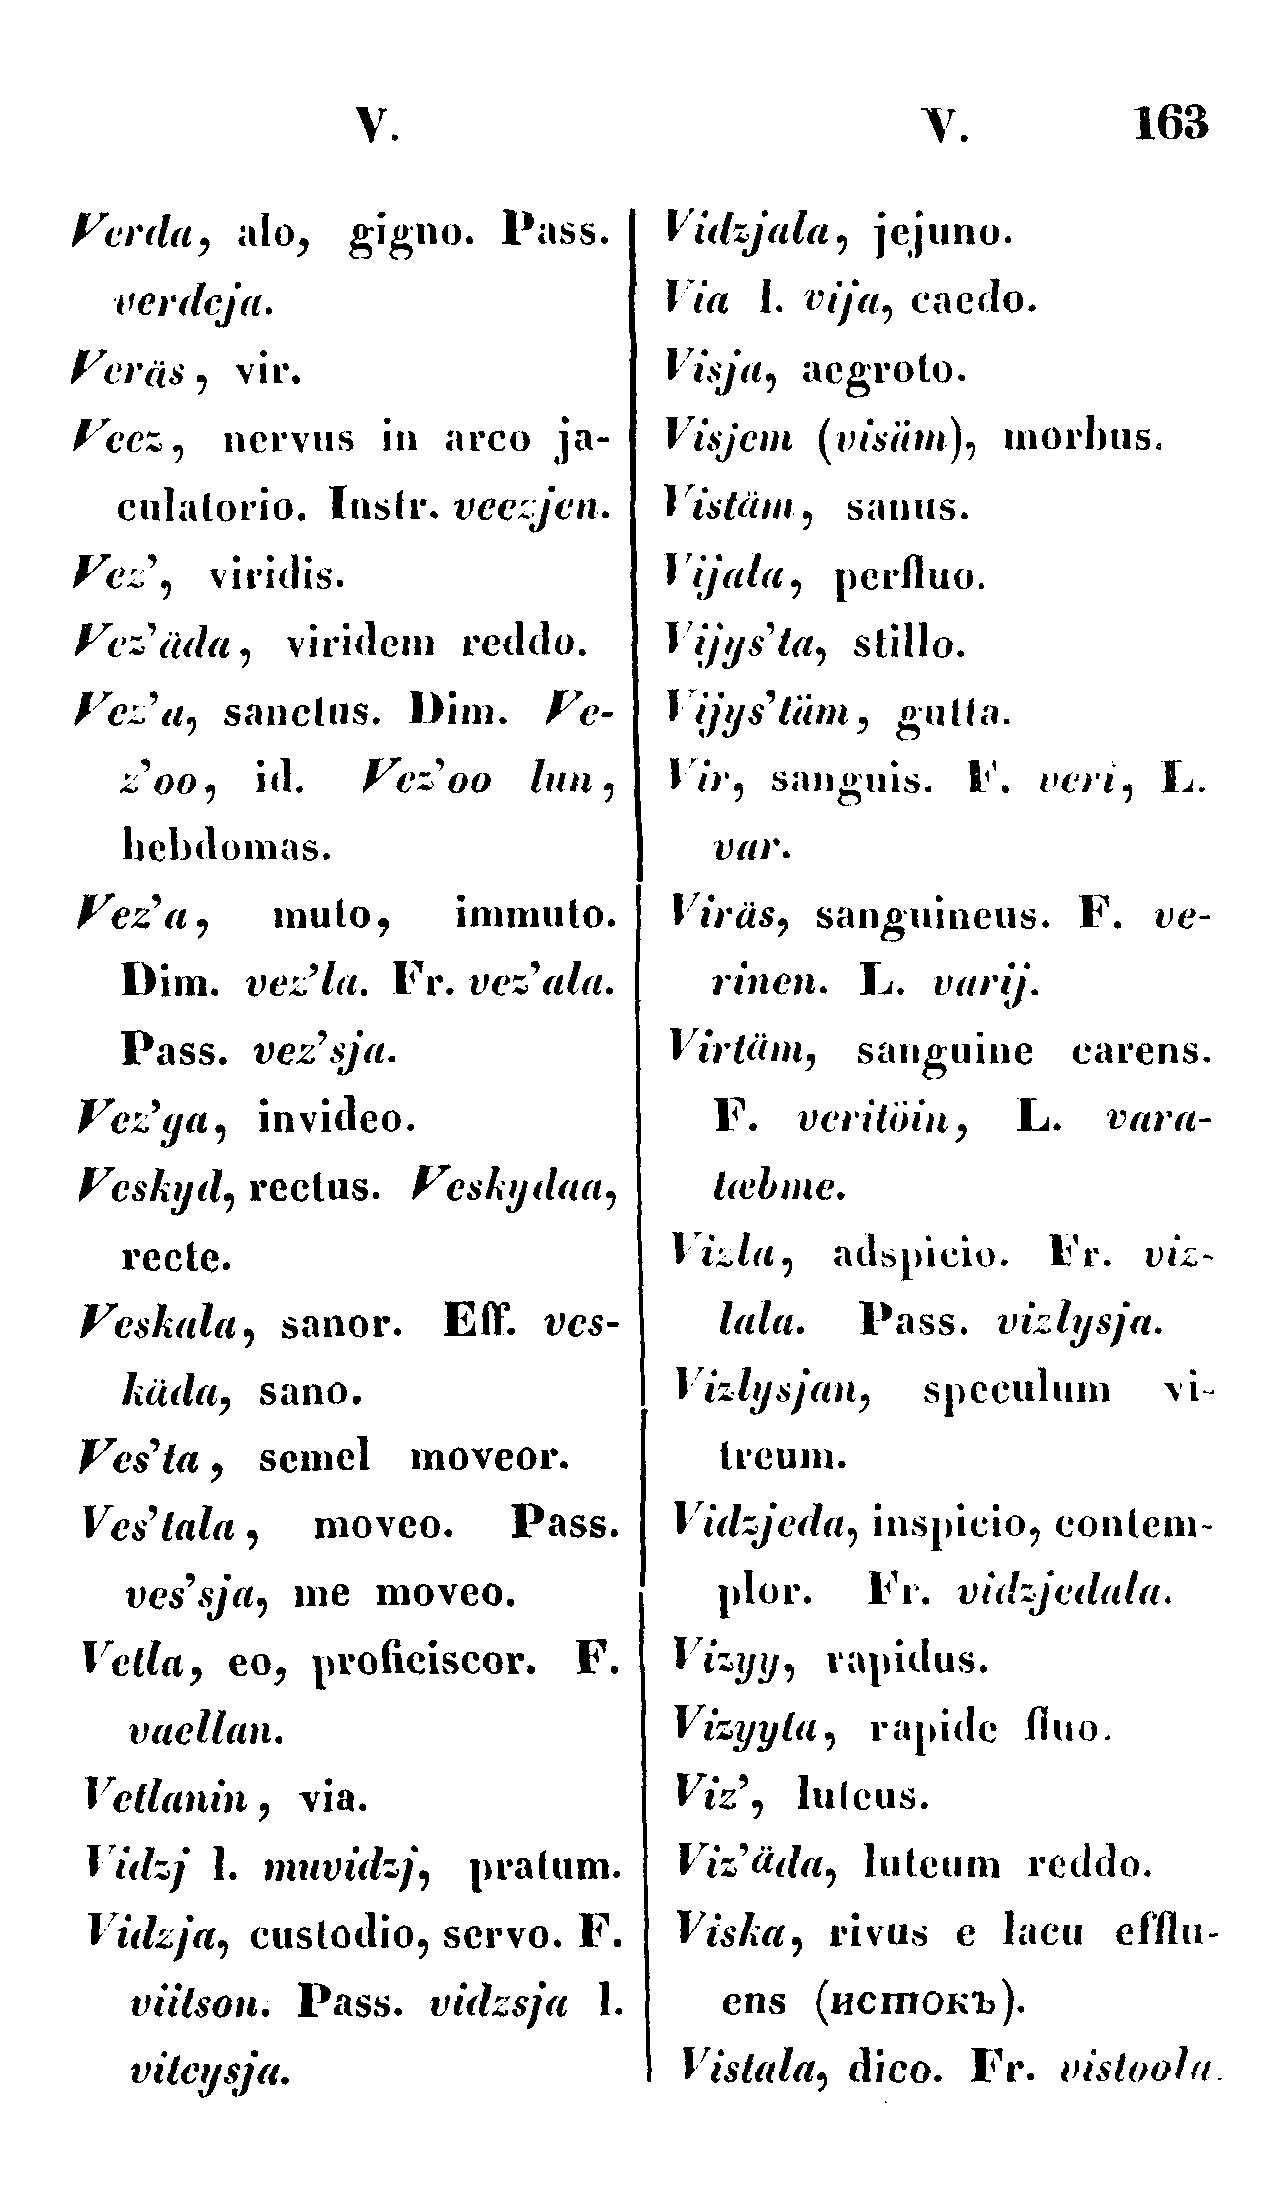V.
V.
163
Verda, alo, gigno. Pass.
verdeja.
Veräs, vir.
Vecz, nervus in arco ja-
culatorio. Instr. veczjen.
Vez', viridis.
Ves'äda, viridem reddo.
Vez'a, sanctus. Dim. Ve-
z'oo, id. Vez'oo lun,
hebdomas.
Vez'a, muto, immuto.
Dim. vez'la. Fr. vez'ala.
Pass. vez'sja.
Vez'ga, invideo.
Veskyd, rectus. Veskydaa,
recte.
Veskala, sanor. Eff. ves-
käda, sano.
Ves'ta, semel moveor.
Ves'tala, moveo. Pass.
ves'sja, me moveo.
Vetla, eo, proficiscor. F.
vaellan.
Vetlanin, via.
Vidzj l. muvidzj, pratum.
Vidzja, custodio, servo. F.
viitson. Pass. vidzsja l.
vitcysja.
Vidzjala, jejuno.
Via l. vija, caedo.
Visja, aegroto.
Visjem (visäm), morbus.
Vistäm, sanus.
Vijala, perfluo.
Vijys'ta, stillo.
Vijys'täm, gutta.
Vir, sanguis. F veri, L.
var.
Viräs, sanguineus. F. ve-
rinen. L. varij.
Virtäm, sanguine carens.
F. veritöin, L. vara-
tæbme.
Vizla, adspicio. Fr. viz-
lala. Pass. vizlysja.
Vialysjan, speculum vi-
treum.
Vidzjeda, inspicio, contem-
plor. Fr. vidzjedala.
Vizyy, rapidus.
Vizyyta, rapide fluo.
Viz', lutcus.
Viz'äda, lutcum reddo.
Viska, rivus e lacu efflu-
ens (истокъ).
Vistala, dico. Fr. vistoola
